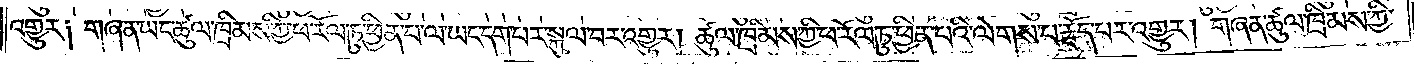འགྱུར། གཞན་ཡང་ཚུལ་ཁྲིམས་ཀྱི་ཕ་རོལ་ཏུ་ཕྱིན་པ་ལ་ཡང་དག་པར་སྐུལ་བར་འགྱུར། ཚུལ་ཁྲིམས་ཀྱི་ཕ་རོལ་ཏུ་ཕྱིན་པའི་ལེགས་པ་རྗོད་པར་འགྱུར། གཞན་ཚུལ་ཁྲིམས་ཀྱི་
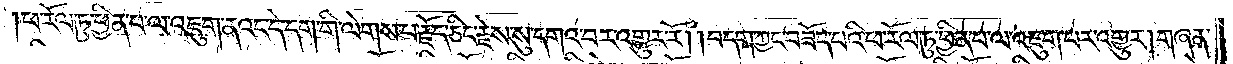ཕ་རོལ་ཏུ་ཕྱིན་པ་ལ་འཇུག་ནའང་དེ་དག་གི་ལེགས་པ་རྗོད་ཅིང་རྗེས་སུ་དགའ་བར་འགྱུར་རོ། །བདག་ཀྱང་བཟོད་པའི་ཕ་རོལ་ཏུ་ཕྱིན་པ་ལ་འཇུག་པར་འགྱུར། གཞན་
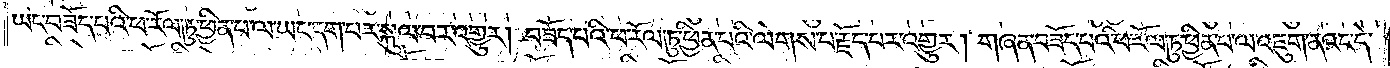ཡང་བཟོད་པའི་ཕ་རོལ་ཏུ་ཕྱིན་པ་ལ་ཡང་དག་པར་སྐུལ་བར་འགྱུར། བཟོད་པའི་ཕ་རོལ་ཏུ་ཕྱིན་པའི་ལེགས་པ་རྗོད་པར་འགྱུར། གཞན་བཟོད་པའི་ཕ་རོལ་ཏུ་ཕྱིན་པ་ལ་འཇུག་ནའང་དེ་
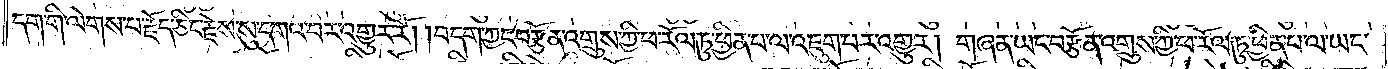དག་གི་ལེགས་པ་རྗོད་ཅིང་རྗེས་སུ་དགའ་བར་འགྱུར་རོ། །བདག་ཀྱང་བརྩོན་འགྲུས་ཀྱི་ཕ་རོལ་ཏུ་ཕྱིན་པ་ལ་འཇུག་པར་འགྱུར། གཞན་ཡང་བརྩོན་འགྲུས་ཀྱི་ཕ་རོལ་ཏུ་ཕྱིན་པ་ལ་ཡང་
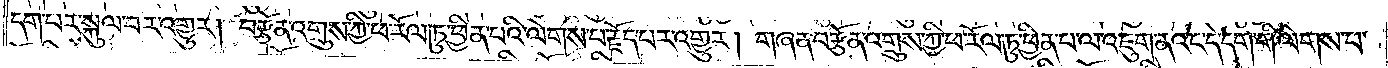དག་པར་སྐུལ་བར་འགྱུར། བརྩོན་འགྲུས་ཀྱི་ཕ་རོལ་ཏུ་ཕྱིན་པའི་ལེགས་པ་རྗོད་པར་འགྱུར། གཞན་བརྩོན་འགྲུས་ཀྱི་ཕ་རོལ་ཏུ་ཕྱིན་པ་ལ་འཇུག་ནའང་དེ་དག་གི་ལེགས་པ་
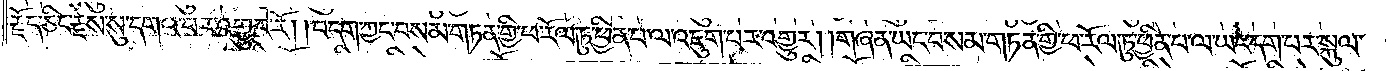རྗོད་ཅིང་རྗེས་སུ་དགའ་བར་འགྱུར་རོ། །བདག་ཀྱང་བསམ་གཏན་གྱི་ཕ་རོལ་ཏུ་ཕྱིན་པ་ལ་འཇུག་པར་འགྱུར། གཞན་ཡང་བསམ་གཏན་གྱི་ཕ་རོལ་ཏུ་ཕྱིན་པ་ལ་ཡང་དག་པར་སྐུལ་
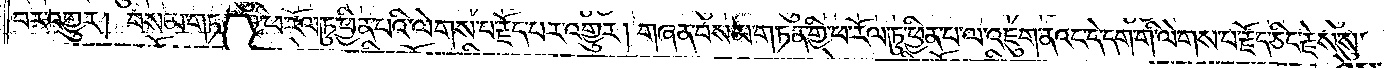བར་འགྱུར། བསམ་གཏན་གྱི་ཕ་རོལ་ཏུ་ཕྱིན་པའི་ལེགས་པ་རྗོད་པར་འགྱུར། གཞན་བསམ་གཏན་གྱི་ཕ་རོལ་ཏུ་ཕྱིན་པ་ལ་འཇུག་ནའང་དེ་དག་གི་ལེགས་པ་རྗོད་ཅིང་རྗེས་སུ་
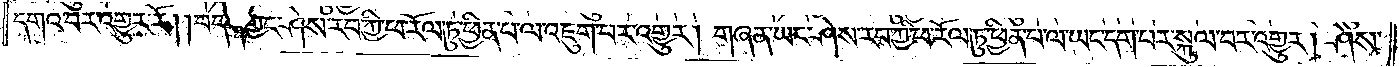དགའ་བར་འགྱུར་རོ། །བདག་ཀྱང་ཤེས་རབ་ཀྱི་ཕ་རོལ་ཏུ་ཕྱིན་པ་ལ་འཇུག་པར་འགྱུར། གཞན་ཡང་ཤེས་རབ་ཀྱི་ཕ་རོལ་ཏུ་ཕྱིན་པ་ལ་ཡང་དག་པར་སྐུལ་བར་འགྱུར། ཤེས་
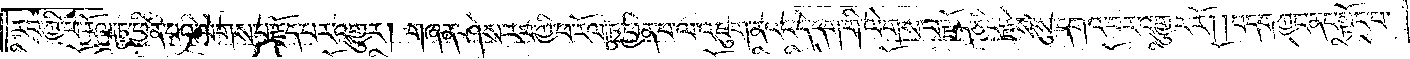རབ་ཀྱི་ཕ་རོལ་ཏུ་ཕྱིན་པའི་ལེགས་པ་རྗོད་པར་འགྱུར། གཞན་ཤེས་རབ་ཀྱི་ཕ་རོལ་ཏུ་ཕྱིན་པ་ལ་འཇུག་ནའང་དེ་དག་གི་ལེགས་པ་རྗོད་ཅིང་རྗེས་སུ་དགའ་བར་འགྱུར་རོ། །བདག་ཀྱང་ནང་སྟོང་པ་
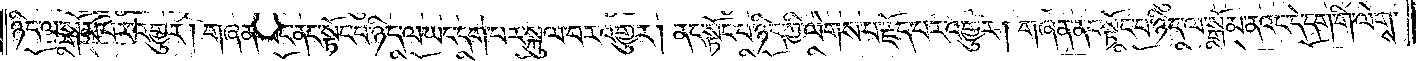ཉིད་ལ་སྒོམ་པར་འགྱུར། གཞན་ཡང་ནང་སྟོང་པ་ཉིད་ལ་ཡང་དག་པར་སྐུལ་བར་འགྱུར། ནང་སྟོང་པ་ཉིད་ཀྱི་ལེགས་པ་རྗོད་པར་འགྱུར། གཞན་ནང་སྟོང་པ་ཉིད་ལ་སྒོམ་ནའང་དེ་དག་གི་ལེགས་
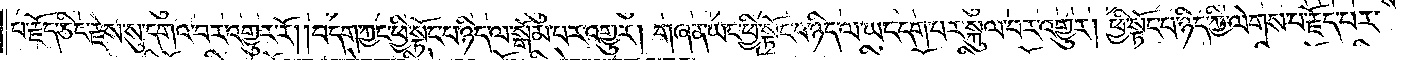པ་རྗོད་ཅིང་རྗེས་སུ་དགའ་བར་འགྱུར་རོ། །བདག་ཀྱང་ཕྱི་སྟོང་པ་ཉིད་ལ་སྒོམ་པར་འགྱུར། གཞན་ཡང་ཕྱི་སྟོང་པ་ཉིད་ལ་ཡང་དག་པར་སྐུལ་བར་འགྱུར། ཕྱི་སྟོང་པ་ཉིད་ཀྱི་ལེགས་པ་རྗོད་པར་
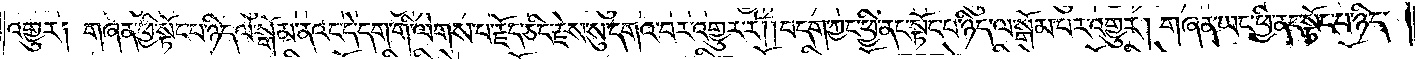འགྱུར། གཞན་ཕྱི་སྟོང་པ་ཉིད་ལ་སྒོམ་ནའང་དེ་དག་གི་ལེགས་པ་རྗོད་ཅིང་རྗེས་སུ་དགའ་བར་འགྱུར་རོ། །བདག་ཀྱང་ཕྱི་ནང་སྟོང་པ་ཉིད་ལ་སྒོམ་པར་འགྱུར། གཞན་ཡང་ཕྱི་ནང་སྟོང་པ་ཉིད་
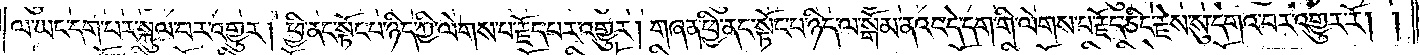ལ་ཡང་དག་པར་སྐུལ་བར་འགྱུར། ཕྱི་ནང་སྟོང་པ་ཉིད་ཀྱི་ལེགས་པ་རྗོད་པར་འགྱུར། གཞན་ཕྱི་ནང་སྟོང་པ་ཉིད་ལ་སྒོམ་ནའང་དེ་དག་གི་ལེགས་པ་རྗོད་ཅིང་རྗེས་སུ་དགའ་བར་འགྱུར་རོ། །
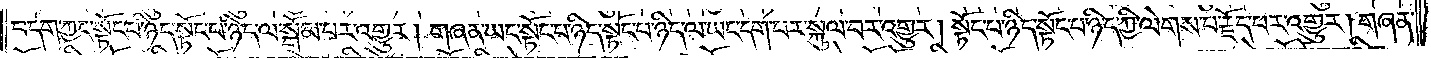བདག་ཀྱང་སྟོང་པ་ཉིད་སྟོང་པ་ཉིད་ལ་སྒོམ་པར་འགྱུར། གཞན་ཡང་སྟོང་པ་ཉིད་སྟོང་པ་ཉིད་ལ་ཡང་དག་པར་སྐུལ་བར་འགྱུར། སྟོང་པ་ཉིད་སྟོང་པ་ཉིད་ཀྱི་ལེགས་པ་རྗོད་པར་འགྱུར། གཞན་
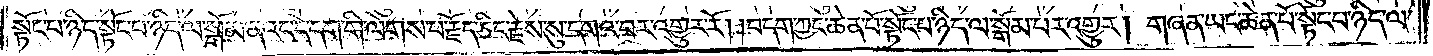སྟོང་པ་ཉིད་སྟོང་པ་ཉིད་ལ་སྒོམ་ནའང་དེ་དག་གི་ལེགས་པ་རྗོད་ཅིང་རྗེས་སུ་དགའ་བར་འགྱུར་རོ། །བདག་ཀྱང་ཆེན་པོ་སྟོང་པ་ཉིད་ལ་སྒོམ་པར་འགྱུར། གཞན་ཡང་ཆེན་པོ་སྟོང་པ་ཉིད་ལ་
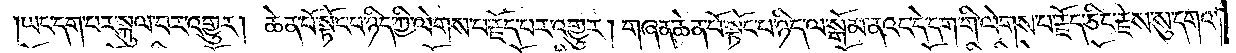ཡང་དག་པར་སྐུལ་བར་འགྱུར། ཆེན་པོ་སྟོང་པ་ཉིད་ཀྱི་ལེགས་པ་རྗོད་པར་འགྱུར། གཞན་ཆེན་པོ་སྟོང་པ་ཉིད་ལ་སྒོམ་ནའང་དེ་དག་གི་ལེགས་པ་རྗོད་ཅིང་རྗེས་སུ་དགའ་
